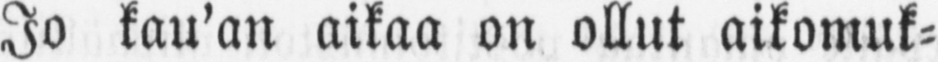Jo kau'an aikaa on ollut aikomuk-
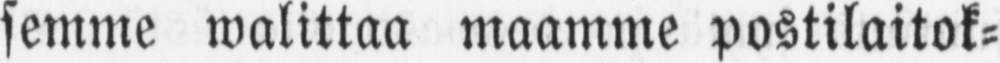semme walittaa maamme postilaitok-
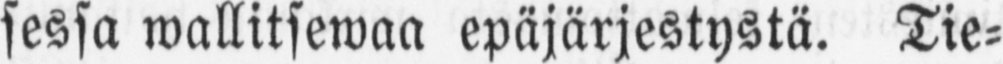sessa epäjärjestystä. Tie-
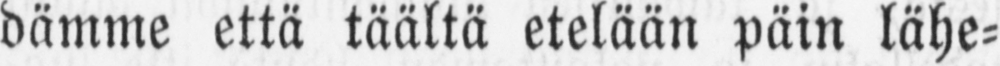dämme että täältä etelään päin lähe-
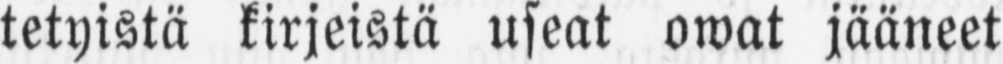tetyistä kirjeistä useat owat jääneet
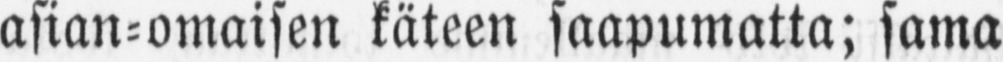asian-omaisen käteen saapumatta; sama
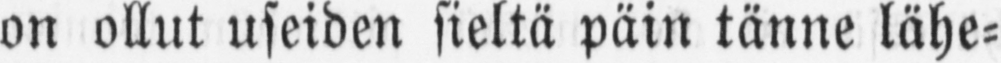on ollut useiden sieltä päin tänne lähe-
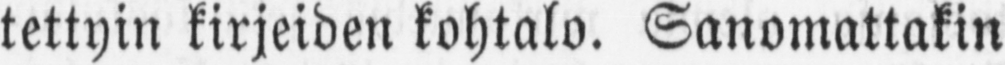tettyin kirjeiden kohtalo. Sanomattakin
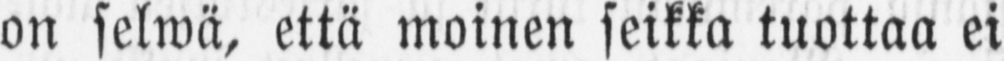on selwä, että moinen seikka tuottaa ei
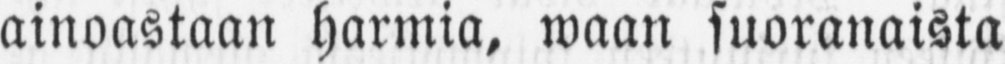ainoastaan harmia, waan suoranaista
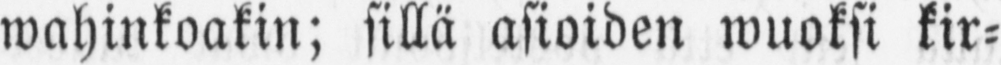wahinkoakin; sillä asioiden wuoksi kir-
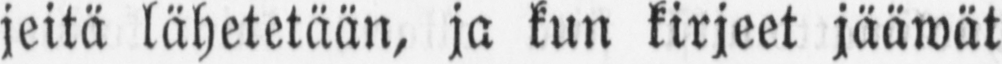jeitä lähetetään, ja kun kirjeet jääwät
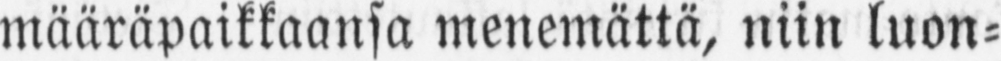määräpaikkaansa menemättä, niin luon-
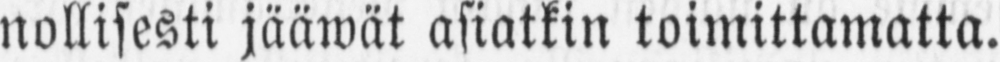nollisesti jääwät asiatkin toimittamatta.
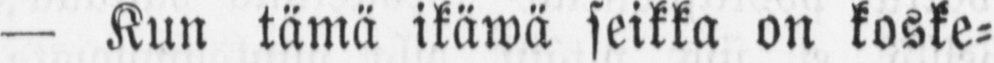— Kun tämä ikäwä seikka on koske-
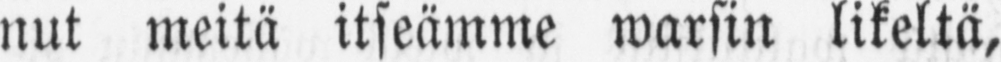nut meitä itseämme warsin likeltä,
